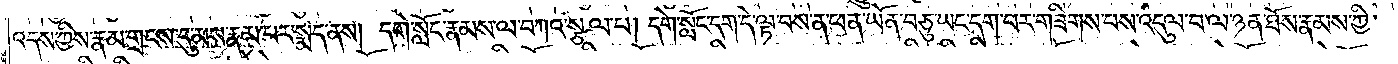འདས་ཀྱིས་རྣམ་གྲངས་དུ་མས་རྣམ་པར་སྨད་ནས། དགེ་སློང་རྣམས་ལ་བཀའ་སྩལ་པ། དགེ་སློང་དག་དེ་ལྟ་བས་ན་ཕན་ཡོན་བཅུ་ཡང་དག་པར་གཟིགས་པས་འདུལ་བ་ལ་ཉན་ཐོས་རྣམས་ཀྱི་
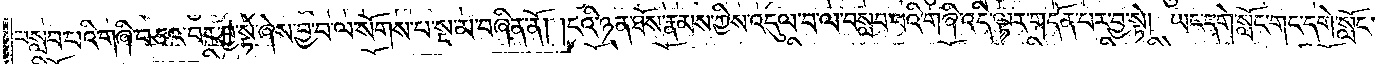བསླབ་པའི་གཞི་བཅའ་བར་བྱ་སྟེ་ཞེས་བྱ་བ་ལ་སོགས་པ་སྔ་མ་བཞིན་ནོ། །ངའི་ཉན་ཐོས་རྣམས་ཀྱིས་འདུལ་བ་ལ་བསླབ་པའི་གཞི་འདི་ལྟར་གདོན་པར་བྱ་སྟེ། ཡང་དགེ་སློང་གང་དགེ་སློང་
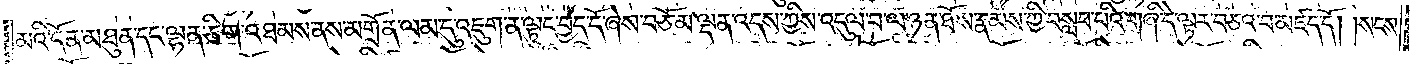མའི་དོན་མཐུན་དང་ལྷན་ཅིག་འཐམས་ནས་མགྲོན་ལམ་དུ་འཇུག་ན་ལྟུང་བྱེད་དོ་ཞེས་བཅོམ་ལྡན་འདས་ཀྱིས་འདུལ་བ་ལ་ཉན་ཐོས་རྣམས་ཀྱི་བསླབ་པའི་གཞི་དེ་ལྟར་བཅའ་བ་མཛད་དོ། །སངས་
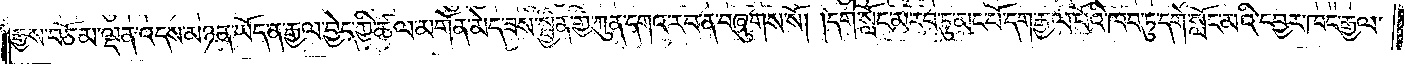རྒྱས་བཅོམ་ལྡན་འདས་མཉན་ཡོད་ན་རྒྱལ་བྱེད་ཀྱི་ཚལ་མགོན་མེད་ཟས་སྦྱིན་གྱི་ཀུན་དགའ་རབ་ན་བཞུགས་སོ། །དགེ་སློང་མ་རབ་ཏུ་མང་པོ་དག་རྒྱལ་པོའི་ཁབ་ཏུ་དགེ་སློང་མའི་དབྱར་ཁང་རྒྱལ་
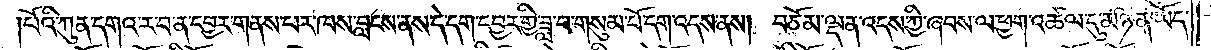པོའི་ཀུན་དགའ་ར་བ་ན་དབྱར་གནས་པར་ཁས་བླངས་ནས་དེ་དག་དབྱར་གྱི་ཟླ་བ་གསུམ་པོ་དག་འདས་ནས། བཅོམ་ལྡན་འདས་ཀྱི་ཞབས་ལ་ཕྱག་འཚལ་དུ་མཉན་ཡོད་
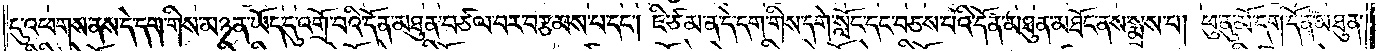དུ་འཕགས་ནས་དེ་དག་གིས་མཉན་ཡོད་དུ་འགྲོ་བའི་དོན་མཐུན་བཙལ་བར་བརྩམས་པ་དང༌། ཇི་ཙམ་ན་དེ་དག་གིས་དགེ་སློང་དང་བཅས་པའི་དོན་མཐུན་མཐོང་ནས་སྨྲས་པ། ཕུ་ནུ་མོ་དག་དོན་མཐུན་
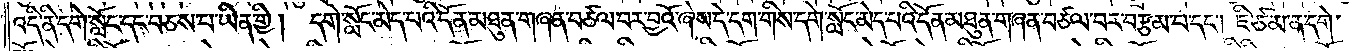འདི་ནི་དགེ་སློང་དང་བཅས་པ་ཡིན་གྱི། དགེ་སློང་མེད་པའི་དོན་མཐུན་གཞན་བཙལ་བར་བྱའོ་ཞེས་དེ་དག་གིས་དགེ་སློང་མེད་པའི་དོན་མཐུན་གཞན་བཙལ་བར་བརྩམས་པ་དང༌། ཇི་ཙམ་ན་དགེ་
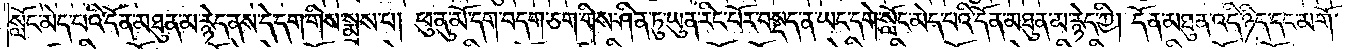སློང་མེད་པའི་དོན་མཐུན་མ་རྙེད་ནས་དེ་དག་གིས་སྨྲས་པ། ཕུ་ནུ་མོ་དག་བདག་ཅག་གིས་ཤིན་ཏུ་ཡུན་རིང་པོར་བསྡད་ན་ཡང་དགེ་སློང་མེད་པའི་དོན་མཐུན་མ་རྙེད་ཀྱི། དོན་མཐུན་འདི་ཉིད་དང་མགོ་
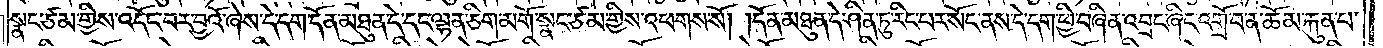སྣང་ཙམ་གྱིས་འདོང་བར་བྱའོ་ཞེས་དེ་དག་དོན་མཐུན་དེ་དང་ལྷན་ཅིག་མགོ་སྣང་ཙམ་གྱིས་འཕགས་སོ། །དོན་མཐུན་དེ་ཤིན་ཏུ་རིང་པར་སོང་ནས་དེ་དག་ཕྱི་བཞིན་འབྲང་ཞིང་འགྲོ་བ་ན་ཆོམ་རྐུན་པ་
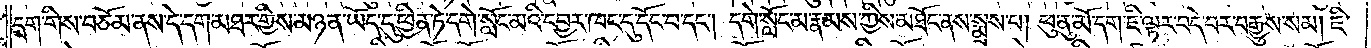དག་གིས་བཅོམ་ལྡན་ནས་དེ་དག་མཐར་གྱིས་མཉན་ཡོད་དུ་ཕྱིན་ཏེ་དགེ་སློང་མའི་དབྱར་ཁང་དུ་དོང་བ་དང༌། དགེ་སློང་མ་རྣམས་ཀྱིས་མཐོང་ནས་སྨྲས་པ། ཕུ་ནུ་མོ་དག་ཇི་ལྟར་བདེ་བར་བརྒྱུས་སམ། ཇི་
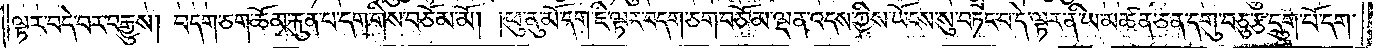ལྟར་བདེ་བར་བརྒྱུས། བདག་ཅག་ཆོམ་རྐུན་པ་དག་གིས་བཅོམ་མོ། །ཕུ་ནུ་མོ་དག་ཇི་ལྟར་བདག་ཅག་བཅོམ་ལྡན་འདས་ཀྱིས་ཡོངས་སུ་བཏང་བ་དེ་ལྟར་ནི་ཡ་མཚན་ཅན་དགུ་བཅུ་རྩ་དྲུག་པོ་དག་
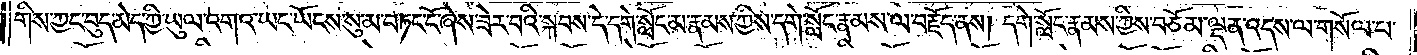གིས་ཀྱང་བུད་མེད་ཀྱི་ཡུལ་འགའ་ཡང་ཡོངས་སུ་མ་བཏང་ངོ་ཞེས་ཟེར་བའི་སྐབས་དེ་དགེ་སློང་མ་རྣམས་ཀྱིས་དགེ་སློང་རྣམས་ལ་བརྗོད་ནས། དགེ་སློང་རྣམས་ཀྱིས་བཅོམ་ལྡན་འདས་ལ་གསོལ་པ་
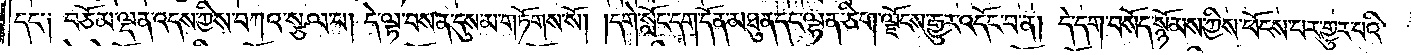དང་༑ བཅོམ་ལྡན་འདས་ཀྱིས་བཀའ་སྩལ་པ། དེ་ལྟ་བས་ན་དུས་མ་གཏོགས་སོ། །དགེ་སློང་དག་དོན་མཐུན་དང་ལྷན་ཅིག་ལྗོངས་རྒྱུར་འདོང་བ་ན། དེ་དག་བསོད་སྙོམས་ཀྱིས་ཕོངས་པར་གྱུར་པའི་
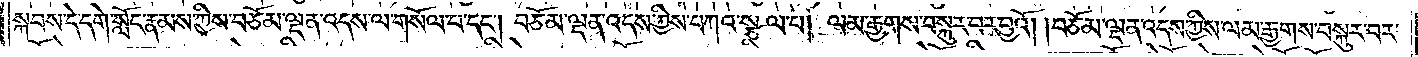སྐབས་དེ་དགེ་སློང་རྣམས་ཀྱིས་བཅོམ་ལྡན་འདས་ལ་གསོལ་པ་དང༌། བཅོམ་ལྡན་འདས་ཀྱིས་བཀའ་སྩལ་པ། ལམ་རྒྱགས་བསྐུར་བར་བྱའོ། །བཅོམ་ལྡན་འདས་ཀྱིས་ལམ་རྒྱགས་བསྐུར་བར་
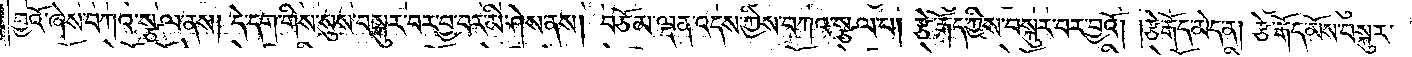བྱའོ་ཞེས་བཀའ་སྩལ་ནས། དེ་དག་གིས་སུས་བསྐུར་བར་བྱ་བར་མི་ཤེས་ནས། བཅོམ་ལྡན་འདས་ཀྱིས་བཀའ་སྩལ་པ། རྩེ་རྒོད་ཀྱིས་བསྐུར་བར་བྱའོ། །རྩེ་རྒོད་མེད་ན། རྩེ་རྒོད་མོས་བསྐུར་
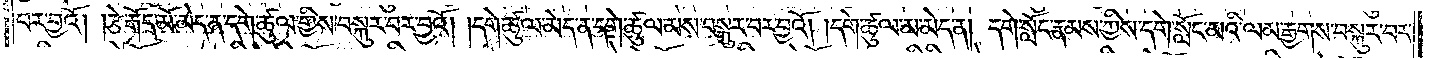བར་བྱའོ། །རྩེ་རྒོད་མོ་མེད་ན་དགེ་ཚུལ་གྱིས་བསྐུར་བར་བྱའོ། །དགེ་ཚུལ་མེད་ན་དགེ་ཚུལ་མས་བསྐུར་བར་བྱའོ། །དགེ་ཚུལ་མ་མེད་ན། དགེ་སློང་རྣམས་ཀྱིས་དགེ་སློང་མའི་ལམ་རྒྱགས་བསྐུར་བར་
